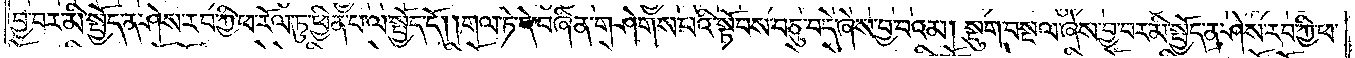བྱ་བར་མི་སྤྱོད་ན་ཤེས་རབ་ཀྱི་ཕ་རོལ་ཏུ་ཕྱིན་པ་ལ་སྤྱོད་དོ། །གལ་ཏེ་དེ་བཞིན་གཤེགས་པའི་སྟོབས་བཅུ་བདེ་ཞེས་བྱ་བའམ། སྡུག་བསྔལ་ཞེས་བྱ་བར་མི་སྤྱོད་ན་ཤེས་རབ་ཀྱི་ཕ་
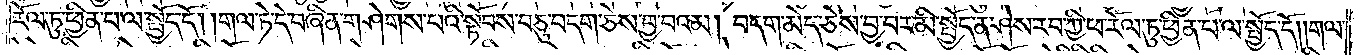རོལ་ཏུ་ཕྱིན་པ་ལ་སྤྱོད་དོ། །གལ་ཏེ་དེ་བཞིན་གཤེགས་པའི་སྟོབས་བཅུ་བདག་ཅེས་བྱ་བའམ། བདག་མེད་ཅེས་བྱ་བར་མི་སྤྱོད་ན་ཤེས་རབ་ཀྱི་ཕ་རོལ་ཏུ་ཕྱིན་པ་ལ་སྤྱོད་དོ། །གལ་
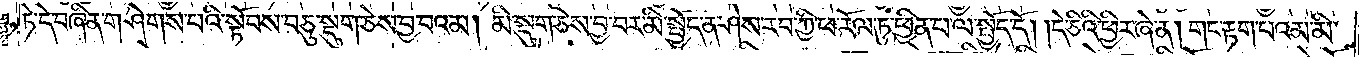ཏེ་དེ་བཞིན་གཤེགས་པའི་སྟོབས་བཅུ་སྡུག་ཅེས་བྱ་བའམ། མི་སྡུག་ཅེས་བྱ་བར་མི་སྤྱོད་ན་ཤེས་རབ་ཀྱི་ཕ་རོལ་ཏུ་ཕྱིན་པ་ལ་སྤྱོད་དོ། །དེ་ཅིའི་ཕྱིར་ཞེ་ན། གང་རྟག་པའམ་མི་
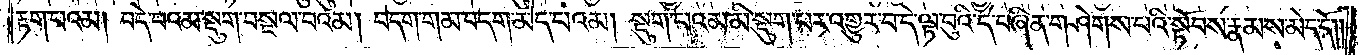རྟག་པའམ། བདེ་བའམ་སྡུག་བསྔལ་བའམ། བདག་གམ་བདག་མེད་པའམ། སྡུག་པའམ་མི་སྡུག་པར་འགྱུར་བ་དེ་ལྟ་བུའི་དེ་བཞིན་གཤེགས་པའི་སྟོབས་རྣམས་མེད་དོ། །
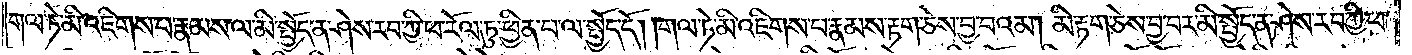གལ་ཏེ་མི་འཇིགས་པ་རྣམས་ལ་མི་སྤྱོད་ན་ཤེས་རབ་ཀྱི་ཕ་རོལ་ཏུ་ཕྱིན་པ་ལ་སྤྱོད་དོ། །གལ་ཏེ་མི་འཇིགས་པ་རྣམས་རྟག་ཅེས་བྱ་བའམ། མི་རྟག་ཅེས་བྱ་བར་མི་སྤྱོད་ན་ཤེས་རབ་ཀྱི་ཕ་
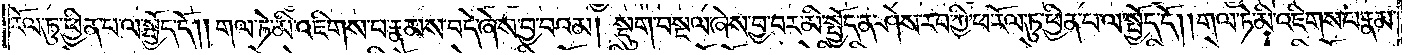རོལ་ཏུ་ཕྱིན་པ་ལ་སྤྱོད་དོ། །གལ་ཏེ་མི་འཇིགས་པ་རྣམས་བདེ་ཞེས་བྱ་བའམ། སྡུག་བསྔལ་ཞེས་བྱ་བར་མི་སྤྱོད་ན་ཤེས་རབ་ཀྱི་ཕ་རོལ་ཏུ་ཕྱིན་པ་ལ་སྤྱོད་དོ། །གལ་ཏེ་མི་འཇིགས་པ་རྣམས་
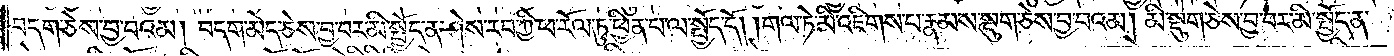བདག་ཅེས་བྱ་བའམ། བདག་མེད་ཅེས་བྱ་བར་མི་སྤྱོད་ན་ཤེས་རབ་ཀྱི་ཕ་རོལ་ཏུ་ཕྱིན་པ་ལ་སྤྱོད་དོ། །གལ་ཏེ་མི་འཇིགས་པ་རྣམས་སྡུག་ཅེས་བྱ་བའམ། མི་སྡུག་ཅེས་བྱ་བར་མི་སྤྱོད་ན་
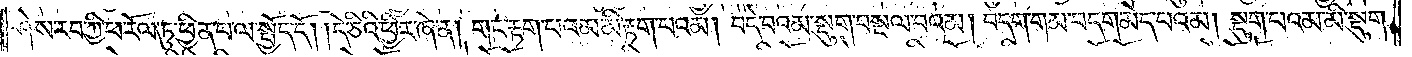ཤེས་རབ་ཀྱི་ཕ་རོལ་ཏུ་ཕྱིན་པ་ལ་སྤྱོད་དོ། །དེ་ཅིའི་ཕྱིར་ཞེ་ན། གང་རྟག་པའམ་མི་རྟག་པའམ། བདེ་བའམ་སྡུག་བསྔལ་བའམ། བདག་གམ་བདག་མེད་པའམ། སྡུག་པའམ་མི་སྡུག་
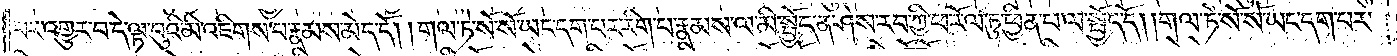པར་འགྱུར་བ་དེ་ལྟ་བུའི་མི་འཇིགས་པ་རྣམས་མེད་དོ། །གལ་ཏེ་སོ་སོ་ཡང་དག་པར་རིག་པ་རྣམས་ལ་མི་སྤྱོད་ན་ཤེས་རབ་ཀྱི་ཕ་རོལ་ཏུ་ཕྱིན་པ་ལ་སྤྱོད་དོ། །གལ་ཏེ་སོ་སོ་ཡང་དག་པར་
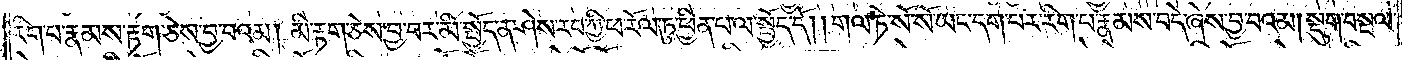རིག་པ་རྣམས་རྟག་ཅེས་བྱ་བའམ། མི་རྟག་ཅེས་བྱ་བར་མི་སྤྱོད་ན་ཤེས་རབ་ཀྱི་ཕ་རོལ་ཏུ་ཕྱིན་པ་ལ་སྤྱོད་དོ། །གལ་ཏེ་སོ་སོ་ཡང་དག་པར་རིག་པ་རྣམས་བདེ་ཞེས་བྱ་བའམ། སྡུག་བསྔལ་
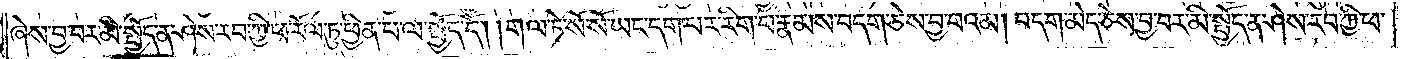ཞེས་བྱ་བར་མི་སྤྱོད་ན་ཤེས་རབ་ཀྱི་ཕ་རོལ་ཏུ་ཕྱིན་པ་ལ་སྤྱོད་དོ། །གལ་ཏེ་སོ་སོ་ཡང་དག་པར་རིག་པ་རྣམས་བདག་ཅེས་བྱ་བའམ། བདག་མེད་ཅེས་བྱ་བར་མི་སྤྱོད་ན་ཤེས་རབ་ཀྱི་ཕ་
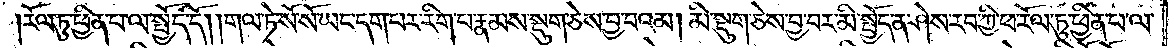རོལ་ཏུ་ཕྱིན་པ་ལ་སྤྱོད་དོ། །གལ་ཏེ་སོ་སོ་ཡང་དག་པར་རིག་པ་རྣམས་སྡུག་ཅེས་བྱ་བའམ། མི་སྡུག་ཅེས་བྱ་བར་མི་སྤྱོད་ན་ཤེས་རབ་ཀྱི་ཕ་རོལ་ཏུ་ཕྱིན་པ་ལ་
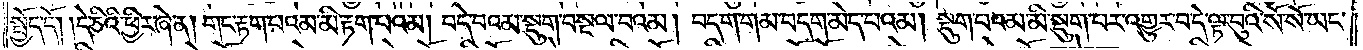སྤྱོད་དོ། །དེ་ཅིའི་ཕྱིར་ཞེ་ན། གང་རྟག་པའམ་མི་རྟག་པའམ། བདེ་བའམ་སྡུག་བསྔལ་བའམ། བདག་གམ་བདག་མེད་པའམ། སྡུག་པའམ་མི་སྡུག་པར་འགྱུར་བ་དེ་ལྟ་བུའི་སོ་སོ་ཡང་
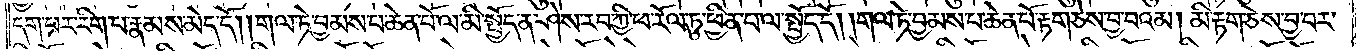དག་པར་རིག་པ་རྣམས་མེད་དོ། །གལ་ཏེ་བྱམས་པ་ཆེན་པོ་ལ་མི་སྤྱོད་ན་ཤེས་རབ་ཀྱི་ཕ་རོལ་ཏུ་ཕྱིན་པ་ལ་སྤྱོད་དོ། །གལ་ཏེ་བྱམས་པ་ཆེན་པོ་རྟག་ཅེས་བྱ་བའམ། མི་རྟག་ཅེས་བྱ་བར་
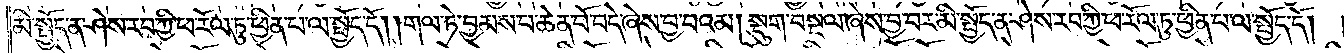མི་སྤྱོད་ན་ཤེས་རབ་ཀྱི་ཕ་རོལ་ཏུ་ཕྱིན་པ་ལ་སྤྱོད་དོ། །གལ་ཏེ་བྱམས་པ་ཆེན་པོ་བདེ་ཞེས་བྱ་བའམ། སྡུག་བསྔལ་ཞེས་བྱ་བར་མི་སྤྱོད་ན་ཤེས་རབ་ཀྱི་ཕ་རོལ་ཏུ་ཕྱིན་པ་ལ་སྤྱོད་དོ། །
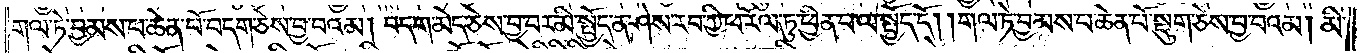གལ་ཏེ་བྱམས་པ་ཆེན་པོ་བདག་ཅེས་བྱ་བའམ། བདག་མེད་ཅེས་བྱ་བར་མི་སྤྱོད་ན་ཤེས་རབ་ཀྱི་ཕ་རོལ་ཏུ་ཕྱིན་པ་ལ་སྤྱོད་དོ། །གལ་ཏེ་བྱམས་པ་ཆེན་པོ་སྡུག་ཅེས་བྱ་བའམ། མི་
